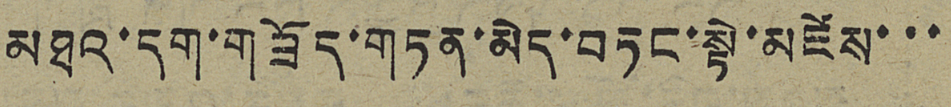མཐའ་དག་གཟོད་གཏན་མེད་བཏང་སྟེ་མཛེས་་་
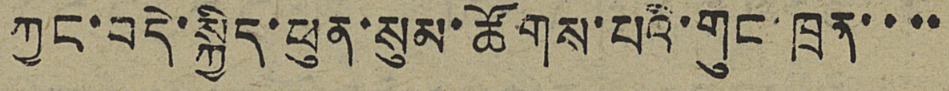ཀྱང་བདེ་སྐྱིད་ཕུན་སུམ་ཚོགས་པའི་གུང་ཁྲན་་་་
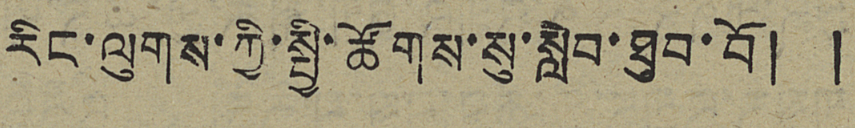རིང་ལུགས་ཀྱི་སྤྱི་ཚོགས་སུ་སླེབ་ཐུབ་བོ། །
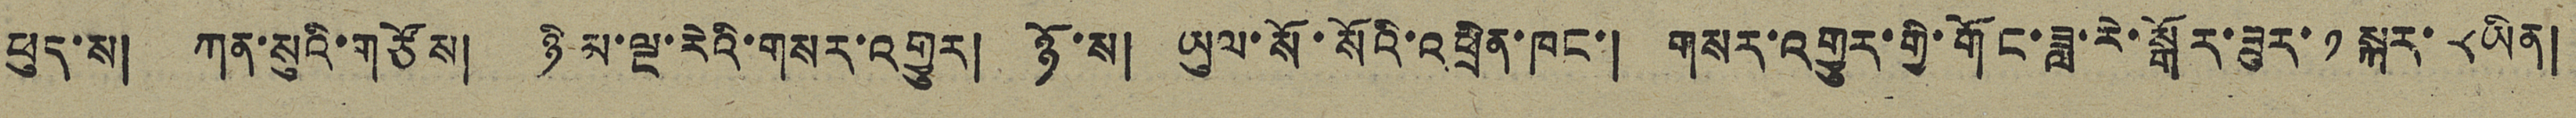པུད་ས། ཀན་སུའི་གཙོས། ཉི་མ་ལྔ་རེའི་གསར་འགྱུར། ཉོ་ས། ཡུལ་སོ་སོའི་འཕྲིན་ཁང་། གསར་འགྱུར་གྱི་གོང་ཟླ་རེ་སྒོར་ཟུར་ ༡ སྐར་ ༨ ཡིན།
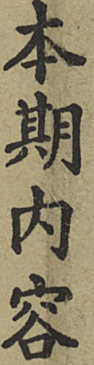本期內容
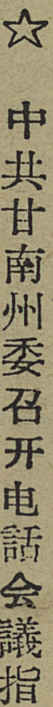☆ 中共甘南州委召开电話会議指
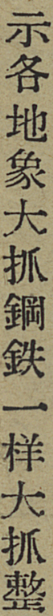示各地象大抓鋼鉄一样大抓整
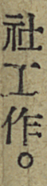社工作。
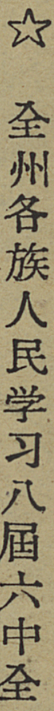☆ 全州各族人民学习八屆六中全
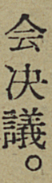会决議。
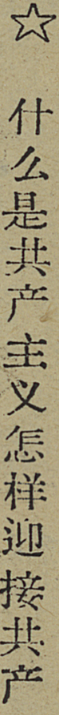☆ 什么是共产主义怎样迎接共产
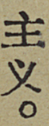主义。
